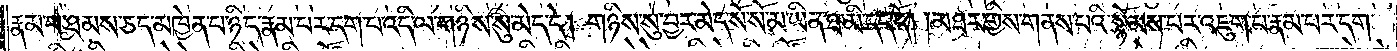རྣམ་པ་ཐམས་ཅད་མཁྱེན་པ་ཉིད་རྣམ་པར་དག་པ་འདི་ལ་གཉིས་སུ་མེད་དེ། གཉིས་སུ་བྱར་མེད་སོ་སོ་མ་ཡིན་ཐ་མི་དད་དོ། །མཐར་གྱིས་གནས་པའི་སྙོམས་པར་འཇུག་པ་རྣམ་པར་དག་
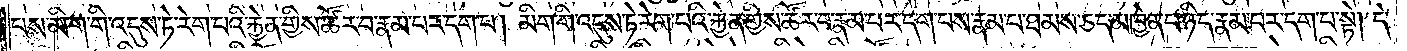པས་མིག་གི་འདུས་ཏེ་རེག་པའི་རྐྱེན་གྱིས་ཚོར་བ་རྣམ་པར་དག་པ། མིག་གི་འདུས་ཏེ་རེག་པའི་རྐྱེན་གྱིས་ཚོར་བ་རྣམ་པར་དག་པས་རྣམ་པ་ཐམས་ཅད་མཁྱེན་པ་ཉིད་རྣམ་པར་དག་པ་སྟེ། དེ་
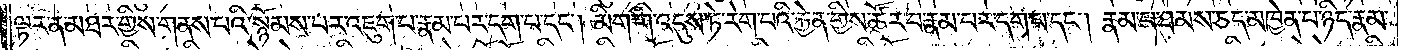ལྟར་ན་མཐར་གྱིས་གནས་པའི་སྙོམས་པར་འཇུག་པ་རྣམ་པར་དག་པ་དང༌། མིག་གི་འདུས་ཏེ་རེག་པའི་རྐྱེན་གྱིས་ཚོར་བ་རྣམ་པར་དག་པ་དང༌། རྣམ་པ་ཐམས་ཅད་མཁྱེན་པ་ཉིད་རྣམ་
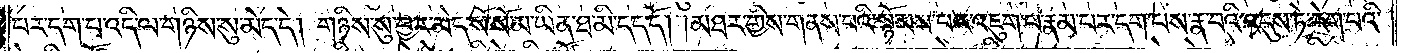པར་དག་པ་འདི་ལ་གཉིས་སུ་མེད་དེ། གཉིས་སུ་བྱར་མེད་སོ་སོ་མ་ཡིན་ཐ་མི་དད་དོ། །མཐར་གྱིས་གནས་པའི་སྙོམས་པར་འཇུག་པ་རྣམ་པར་དག་པས་རྣ་བའི་འདུས་ཏེ་རེག་པའི་
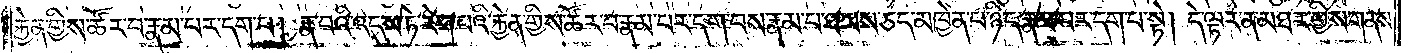རྐྱེན་གྱིས་ཚོར་བ་རྣམ་པར་དག་པ། རྣ་བའི་འདུས་ཏེ་རེག་པའི་རྐྱེན་གྱིས་ཚོར་བ་རྣམ་པར་དག་པས་རྣམ་པ་ཐམས་ཅད་མཁྱེན་པ་ཉིད་རྣམ་པར་དག་པ་སྟེ། དེ་ལྟར་ན་མཐར་གྱིས་གནས་
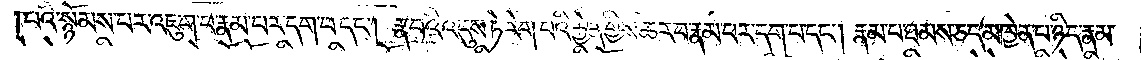པའི་སྙོམས་པར་འཇུག་པ་རྣམ་པར་དག་པ་དང༌། རྣ་བའི་འདུས་ཏེ་རེག་པའི་རྐྱེན་གྱིས་ཚོར་བ་རྣམ་པར་དག་པ་དང༌། རྣམ་པ་ཐམས་ཅད་མཁྱེན་པ་ཉིད་རྣམ་
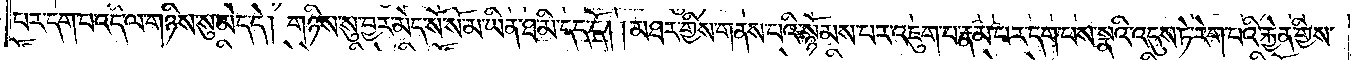པར་དག་པ་འདི་ལ་གཉིས་སུ་མེད་དེ། གཉིས་སུ་བྱར་མེད་སོ་སོ་མ་ཡིན་ཐ་མི་དད་དོ། །མཐར་གྱིས་གནས་པའི་སྙོམས་པར་འཇུག་པ་རྣམ་པར་དག་པས་སྣའི་འདུས་ཏེ་རེག་པའི་རྐྱེན་གྱིས་
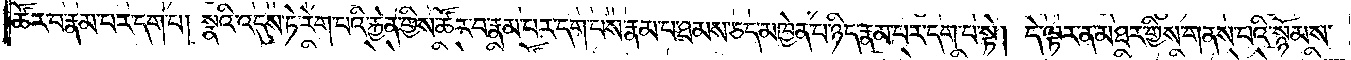ཚོར་བ་རྣམ་པར་དག་པ། སྣའི་འདུས་ཏེ་རེག་པའི་རྐྱེན་གྱིས་ཚོར་བ་རྣམ་པར་དག་པས་རྣམ་པ་ཐམས་ཅད་མཁྱེན་པ་ཉིད་རྣམ་པར་དག་པ་སྟེ། དེ་ལྟར་ན་མཐར་གྱིས་གནས་པའི་སྙོམས་
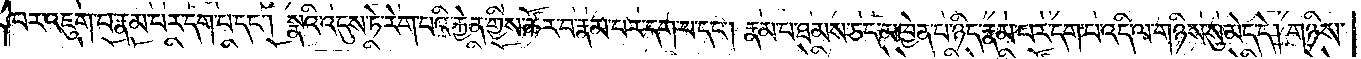པར་འཇུག་པ་རྣམ་པར་དག་པ་དང༌། སྣའི་འདུས་ཏེ་རེག་པའི་རྐྱེན་གྱིས་ཚོར་བ་རྣམ་པར་དག་པ་དང༌། རྣམ་པ་ཐམས་ཅད་མཁྱེན་པ་ཉིད་རྣམ་པར་དག་པ་འདི་ལ་གཉིས་སུ་མེད་དེ། གཉིས་
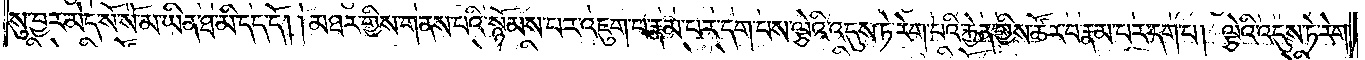སུ་བྱར་མེད་སོ་སོ་མ་ཡིན་ཐ་མི་དད་དོ། །མཐར་གྱིས་གནས་པའི་སྙོམས་པར་འཇུག་པ་རྣམ་པར་དག་པས་ལྕེའི་འདུས་ཏེ་རེག་པའི་རྐྱེན་གྱིས་ཚོར་བ་རྣམ་པར་དག་པ། ལྕེའི་འདུས་ཏེ་རེག་
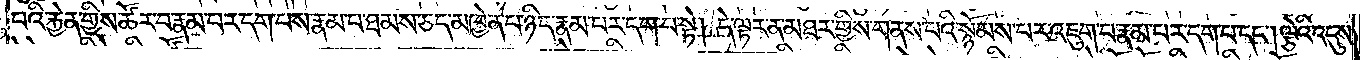པའི་རྐྱེན་གྱིས་ཚོར་བ་རྣམ་པར་དག་པས་རྣམ་པ་ཐམས་ཅད་མཁྱེན་པ་ཉིད་རྣམ་པར་དག་པ་སྟེ། དེ་ལྟར་ན་མཐར་གྱིས་གནས་པའི་སྙོམས་པར་འཇུག་པ་རྣམ་པར་དག་པ་དང༌། ལྕེའི་འདུས་
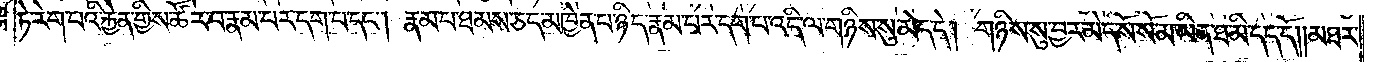ཏེ་རེག་པའི་རྐྱེན་གྱིས་ཚོར་བ་རྣམ་པར་དག་པ་དང༌། རྣམ་པ་ཐམས་ཅད་མཁྱེན་པ་ཉིད་རྣམ་པར་དག་པ་འདི་ལ་གཉིས་སུ་མེད་དེ། གཉིས་སུ་བྱར་མེད་སོ་སོ་མ་ཡིན་ཐ་མི་དད་དོ། །མཐར་
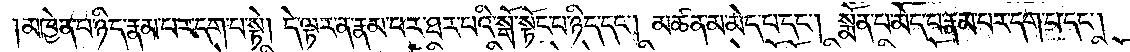མཁྱེན་པ་ཉིད་རྣམ་པར་དག་པ་སྟེ། དེ་ལྟར་ན་རྣམ་པར་ཐར་བའི་སྒོ་སྟོང་པ་ཉིད་དང༌། མཚན་མ་མེད་པ་དང༌། སྨོན་པ་མེད་པ་རྣམ་པར་དག་པ་དང༌།
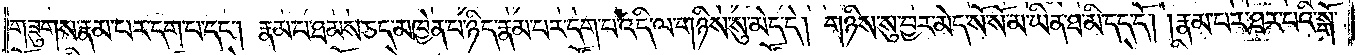གཟུགས་རྣམ་པར་དག་པ་དང༌། རྣམ་པ་ཐམས་ཅད་མཁྱེན་པ་ཉིད་རྣམ་པར་དག་པ་འདི་ལ་གཉིས་སུ་མེད་དེ། གཉིས་སུ་བྱར་མེད་སོ་སོ་མ་ཡིན་ཐ་མི་དད་དོ། །རྣམ་པར་ཐར་པའི་སྒོ་
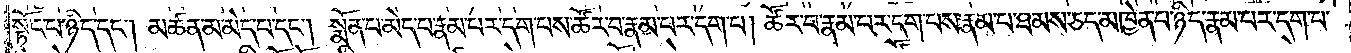སྟོང་པ་ཉིད་དང༌། མཚན་མ་མེད་པ་དང༌། སྨོན་པ་མེད་པ་རྣམ་པར་དག་པས་ཚོར་བ་རྣམ་པར་དག་པ། ཚོར་བ་རྣམ་པར་དག་པས་རྣམ་པ་ཐམས་ཅད་མཁྱེན་པ་ཉིད་རྣམ་པར་དག་པ་
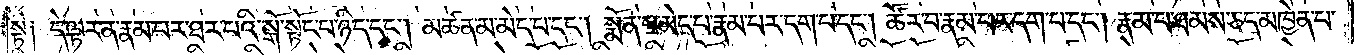སྟེ༑ དེ་ལྟར་ན་རྣམ་པར་ཐར་པའི་སྒོ་སྟོང་པ་ཉིད་དང༌། མཚན་མ་མེད་པ་དང༌། སྨོན་པ་མེད་པ་རྣམ་པར་དག་པ་དང༌། ཚོར་བ་རྣམ་པར་དག་པ་དང༌། རྣམ་པ་ཐམས་ཅད་མཁྱེན་པ་
